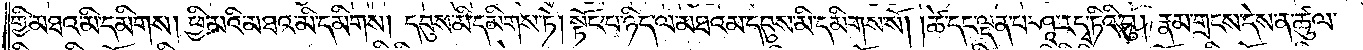གྱི་མཐའ་མི་དམིགས། ཕྱི་མའི་མཐའ་མི་དམིགས། དབུས་མི་དམིགས་ཏེ། སྟོང་པ་ཉིད་ལ་མཐའམ་དབུས་མི་དམིགས་སོ། །ཚེ་དང་ལྡན་པ་ཤཱ་ར་དྭ་ཏིའི་བུ། རྣམ་གྲངས་དེས་ན་ཚུལ་
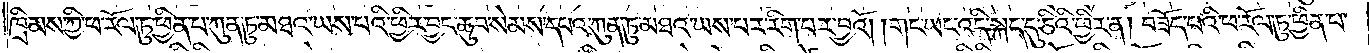ཁྲིམས་ཀྱ་ཕ་རོལ་ཏུ་ཕྱིན་པ་ཀུན་ཏུ་མཐའ་ཡས་པའི་ཕྱིར་བྱང་ཆུབ་སེམས་དཔའ་ཀུན་ཏུ་མཐའ་ཡས་པར་རིག་པར་བྱའོ། །གང་ཡང་འདི་སྐད་དུ་ཅིའི་ཕྱིར་ན། བཟོད་པའི་ཕ་རོལ་ཏུ་ཕྱིན་པ་
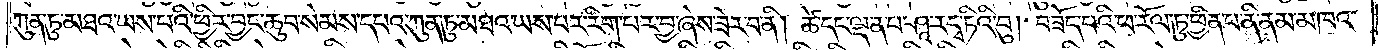ཀུན་ཏུ་མཐའ་ཡས་པའི་ཕྱིར་བྱང་ཆུབ་སེམས་དཔའ་ཀུན་ཏུ་མཐའ་ཡས་པར་རིག་པར་བྱ་ཞེས་ཟེར་བ་ནི། ཚེ་དང་ལྡན་པ་ཤཱ་ར་དྭ་ཏིའི་བུ། བཟོད་པའི་ཕ་རོལ་ཏུ་ཕྱིན་པ་ནི་ནམ་མཁའ་
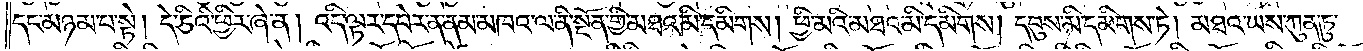དང་མཉམ་པ་སྟེ། དེ་ཅིའི་ཕྱིར་ཞེ་ན། འདི་ལྟར་དཔེར་ན་ནམ་མཁའ་ལ་ནི་སྔོན་གྱི་མཐའ་མི་དམིགས། ཕྱི་མའི་མཐའ་མི་དམིགས། དབུས་མི་དམིགས་ཏེ། མཐའ་ཡས་ཀུན་ཏུ་
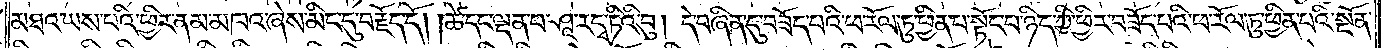མཐའ་ཡས་པའི་ཕྱིར་ནམ་མཁའ་ཞེས་མིང་དུ་བརྗོད་དོ། །ཚེ་དང་ལྡན་པ་ཤཱ་ར་དྭ་ཏིའི་བུ། དེ་བཞིན་དུ་བཟོད་པའི་ཕ་རོལ་ཏུ་ཕྱིན་པ་སྟོང་པ་ཉིད་ཀྱི་ཕྱིར་བཟོད་པའི་ཕ་རོལ་ཏུ་ཕྱིན་པའི་སྔོན་
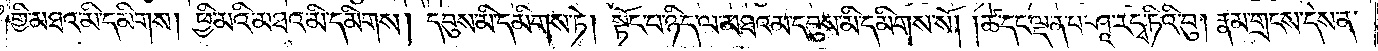གྱི་མཐའ་མི་དམིགས། ཕྱི་མའི་མཐའ་མི་དམིགས། དབུས་མི་དམིགས་ཏེ། སྟོང་པ་ཉིད་ལ་མཐའམ་དབུས་མི་དམིགས་སོ། །ཚེ་དང་ལྡན་པ་ཤཱ་ར་དྭ་ཏིའི་བུ། རྣམ་གྲངས་དེས་ན་
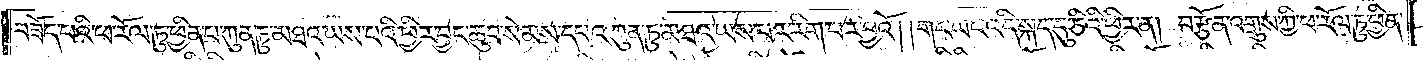བཟོད་པའི་ཕ་རོལ་ཏུ་ཕྱིན་པ་ཀུན་ཏུ་མཐའ་ཡས་པའི་ཕྱིར་བྱང་ཆུབ་སེམས་དཔའ་ཀུན་ཏུ་མཐའ་ཡས་པར་རིག་པར་བྱའོ། །གང་ཡང་འདི་སྐད་དུ་ཅིའི་ཕྱིར་ན། བརྩོན་འགྲུས་ཀྱི་ཕ་རོལ་ཏུ་ཕྱིན་
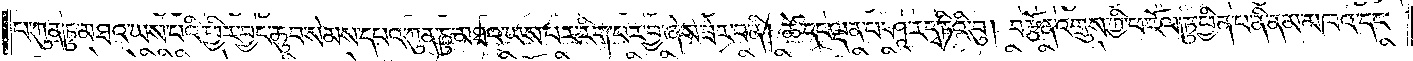པ་ཀུན་ཏུ་མཐའ་ཡས་པའི་ཕྱིར་བྱང་ཆུབ་སེམས་དཔའ་ཀུན་ཏུ་མཐའ་ཡས་པར་རིག་པར་བྱ་ཞེས་ཟེར་བ་ནི། ཚེ་དང་ལྡན་པ་ཤཱ་ར་དྭ་ཏིའི་བུ། བརྩོན་འགྲུས་ཀྱི་ཕ་རོལ་ཏུ་ཕྱིན་པ་ནི་ནམ་མཁའ་དང་
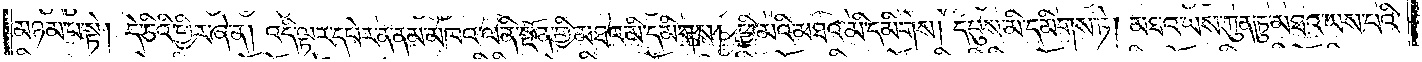མཉམ་པ་སྟེ། དེ་ཅིའི་ཕྱིར་ཞེ་ན། འདི་ལྟར་དཔེར་ན་ནམ་མཁའ་ལ་ནི་སྔོན་གྱི་མཐའ་མི་དམིགས། ཕྱི་མའི་མཐའ་མི་དམིགས། དབུས་མི་དམིགས་ཏེ། མཐའ་ཡས་ཀུན་ཏུ་མཐའ་ཡས་པའི་
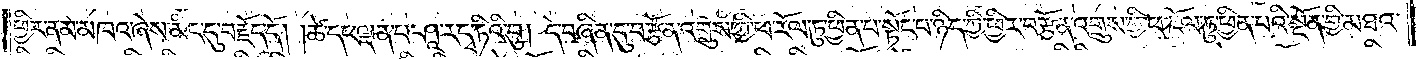ཕྱིར་ནམ་མཁའ་ཞེས་མིང་དུ་བརྗོད་དོ། །ཚེ་དང་ལྡན་པ་ཤཱ་ར་དྭ་ཏིའི་བུ། དེ་བཞིན་དུ་བརྩོན་འགྲུས་ཀྱི་ཕ་རོལ་ཏུ་ཕྱིན་པ་སྟོང་པ་ཉིད་ཀྱི་ཕྱིར་བརྩོན་འགྲུས་ཀྱི་ཕ་རོལ་ཏུ་ཕྱིན་པའི་སྔོན་གྱི་མཐའ་
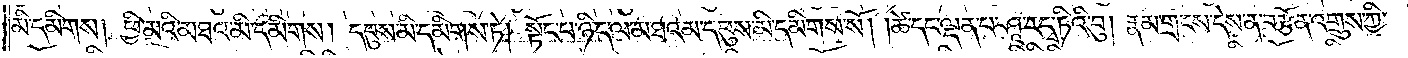མི་དམིགས། ཕྱི་མའི་མཐའ་མི་དམིགས། དབུས་མི་དམིགས་ཏེ། སྟོང་པ་ཉིད་ལ་མཐའམ་དབུས་མི་དམིགས་སོ། །ཚེ་དང་ལྡན་པ་ཤཱ་ར་དྭ་ཏིའི་བུ། རྣམ་གྲངས་དེས་ན་བརྩོན་འགྲུས་ཀྱི་
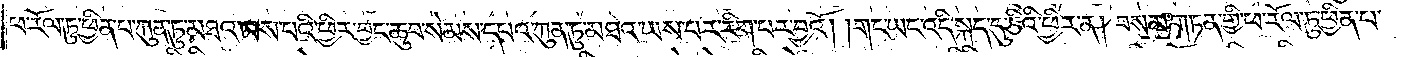ཕ་རོལ་ཏུ་ཕྱིན་པ་ཀུན་ཏུ་མཐའ་ཡས་པའི་ཕྱིར་བྱང་ཆུབ་སེམས་དཔའ་ཀུན་ཏུ་མཐའ་ཡས་པར་རིག་པར་བྱའོ། །གང་ཡང་འདི་སྐད་དུ་ཅིའི་ཕྱིར་ན། བསམ་གཏན་གྱི་ཕ་རོལ་ཏུ་ཕྱིན་པ་
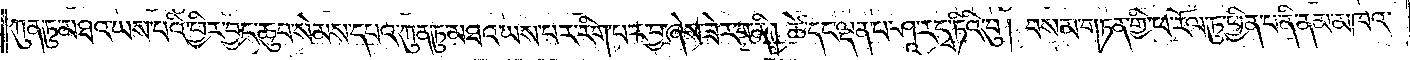ཀུན་ཏུ་མཐའ་ཡས་པའི་ཕྱིར་བྱང་ཆུབ་སེམས་དཔའ་ཀུན་ཏུ་མཐའ་ཡས་པར་རིག་པར་བྱ་ཞེས་ཟེར་བ་ནི། ཚེ་དང་ལྡན་པ་ཤཱ་ར་དྭ་ཏིའི་བུ། བསམ་གཏན་གྱི་ཕ་རོལ་ཏུ་ཕྱིན་པ་ནི་ནམ་མཁའ་
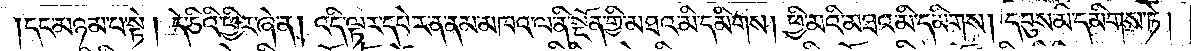དང་མཉམ་པ་སྟེ། དེ་ཅིའི་ཕྱིར་ཞེ་ན། འདི་ལྟར་དཔེར་ན་ནམ་མཁའ་ལ་ནི་སྔོན་གྱི་མཐའ་མི་དམིགས། ཕྱི་མའི་མཐའ་མི་དམིགས། དབུས་མི་དམིགས་ཏེ།
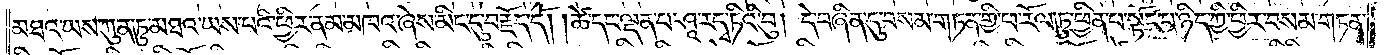མཐའ་ཡས་ཀུན་ཏུ་མཐའ་ཡས་པའི་ཕྱིར་ནམ་མཁའ་ཞེས་མིང་དུ་བརྗོད་དོ། །ཚེ་དང་ལྡན་པ་ཤཱ་ར་དྭ་ཏིའི་བུ། དེ་བཞིན་དུ་བསམ་གཏན་གྱི་ཕ་རོལ་ཏུ་ཕྱིན་པ་སྟོང་པ་ཉིད་ཀྱི་ཕྱིར་བསམ་གཏན་
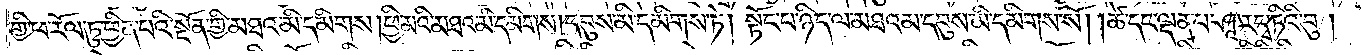གྱི་ཕ་རོལ་ཏུ་ཕྱིན་པའི་སྔོན་གྱི་མཐའ་མི་དམིགས། ཕྱི་མའི་མཐའ་མི་དམིགས། དབུས་མི་དམིགས་ཏེ། སྟོང་པ་ཉིད་ལ་མཐའམ་དབུས་མི་དམིགས་སོ། །ཚེ་དང་ལྡན་པ་ཤཱ་ར་དྭ་ཏིའི་བུ།
